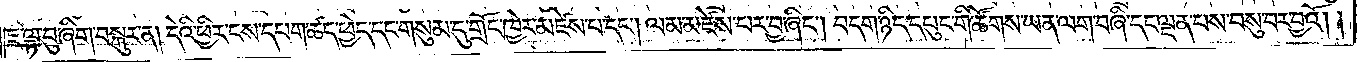ཇི་ལྟ་བུ་ཞིག་བསྐུར་ན། དེའི་ཕྱིར་ངས་དཔག་ཚད་ཕྱེད་དང་གསུམ་དུ་གྲོང་ཁྱེར་མཛེས་པ་དང༌། ལམ་མཛེས་པར་བྱ་ཞིང༌། བདག་ཉིད་དཔུང་གི་ཚོགས་ཡན་ལག་བཞི་དང་ལྡན་པས་བསུ་བར་བྱའོ། །
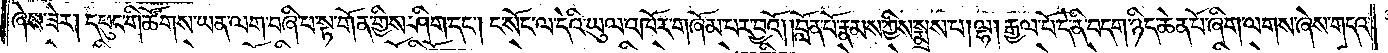ཞེས་ཟེར། དཔུང་གི་ཚོགས་ཡན་ལག་བཞི་པ་སྟ་གོན་གྱིས་ཤིག་དང༌། ང་སོང་ལ་དེའི་ཡུལ་འཁོར་གཞོམ་པར་བྱའོ། །བློན་པོ་རྣམས་ཀྱིས་སྨྲས་པ། ལྷ། རྒྱལ་པོ་དེ་ནི་བདག་ཉིད་ཆེན་པོ་ཞིག་ལགས་ཞེས་གདའ་
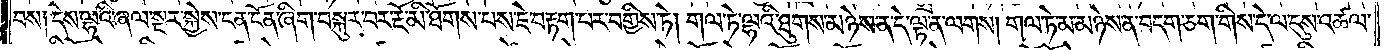བས། དེས་ལྷའི་ཞལ་སྔར་སྐྱེས་ངན་ངོན་ཞིག་བསྐུར་བར་རྔོ་མི་ཐོགས་པས་ཇེ་བརྟག་པར་བགྱིས་ཏེ། གལ་ཏེ་ལྷའི་ཐུགས་མཉེས་ན་དེ་ལྟ་ན་ལགས། གལ་ཏེ་མ་མཉེས་ན་བདག་ཅག་གིས་དེ་ལ་དུས་འཚལ་
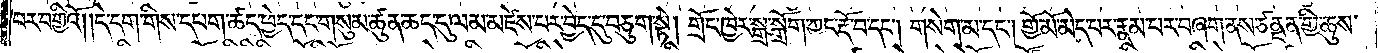བར་བགྱིའོ། །དེ་དག་གིས་དཔག་ཚད་ཕྱེད་དང་གསུམ་ཚུན་ཆད་དུ་ལམ་མཛེས་པར་བྱེད་དུ་བཅུག་སྟེ། གྲོང་ཁྱེར་སྒྲ་སྒྲོག་ཀྱང་རྡོ་བ་དང༌། གསེག་མ་དང༌། གྱོ་མོ་མེད་པར་རྣམ་པར་བཞག་ནས་ཙནྡན་གྱི་ཆུས་
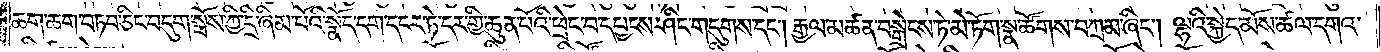ཆག་ཆག་བཏབ་ཅིང་བདུག་སྤོས་ཀྱི་དྲི་ཞིམ་པོའི་སྣོད་དག་དངར་ཏེ་དར་གྱི་ཆུན་པོའི་ཕྲེང་བ་དཔྱངས་ཤིང་གདུགས་དང༌། རྒྱལ་མཚན་བསྒྲེངས་ཏེ་མེ་ཏོག་སྣ་ཚོགས་བཀྲམ་ཞིང༌། ལྷའི་སྐྱེད་མོས་ཚལ་དགའ་
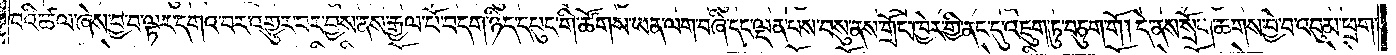བའི་ཚལ་ཞེས་བྱ་བ་ལྟར་དགའ་བར་འགྱུར་བར་བྱས་ནས་རྒྱལ་པོ་བདག་ཉིད་དཔུང་གི་ཚོགས་ཡན་ལག་བཞི་དང་ལྡན་པས་བསུ་ནས་གྲོང་ཁྱེར་གྱི་ནང་དུ་འཇུག་ཏུ་བཅུག་གོ །དེ་ནས་སྲོག་ཆགས་བྱེ་བ་འབུམ་ཕྲག་
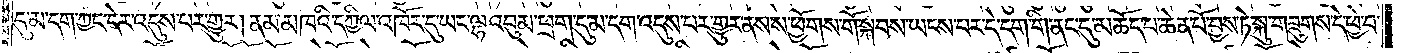དུ་མ་དག་ཀྱང་དེར་འདུས་པར་གྱུར། ནམ་མཁའི་དཀྱིལ་འཁོར་དུ་ཡང་ལྷ་འབུམ་ཕྲག་དུ་མ་དག་འདུས་པར་གྱུར་ནས་ས་ཕྱོགས་གོ་སྐབས་ཡངས་པར་དེ་དག་གི་ནང་དུ་མཆོད་པ་ཆེན་པོ་བྱས་ཏེ་སྐུ་གཟུགས་དེ་ཕྱེ་བ་
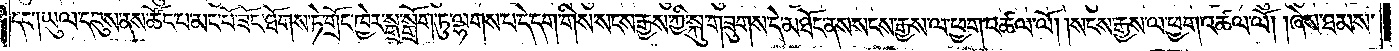དང༌། ཡུལ་དབུས་ནས་ཚོང་པ་མང་པོ་ཟོང་ཐོགས་ཏེ་གྲོང་ཁྱེར་སྒྲ་སྒྲོག་ཏུ་ལྷགས་པ་དེ་དག་གིས་སངས་རྒྱས་ཀྱི་སྐུ་གཟུགས་དེ་མཐོང་ནས་སངས་རྒྱས་ལ་ཕྱག་འཚལ་ལོ། །སངས་རྒྱས་ལ་ཕྱག་འཚལ་ལོ། །ཞེས་ཐམས་
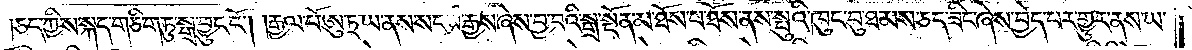ཅད་ཀྱིས་སྐད་གཅིག་ཏུ་སྒྲ་བྱུང་ངོ༌། །རྒྱལ་པོ་ཨུ་ཏྲ་ཡ་ནས་སངས་རྒྱས་ཞེས་བྱ་བའི་སྒྲ་སྔོན་མ་ཐོས་པ་ཐོས་ནས་སྤུའི་ཁུང་བུ་ཐམས་ཅད་ཟིང་ཞེས་བྱེད་པར་གྱུར་ནས་ཡ་
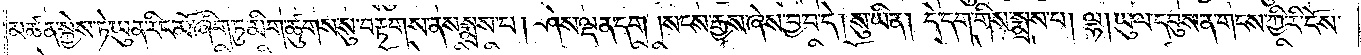མཚན་སྐྱེས་ཏེ་ཡུན་རིང་མོ་ཞིག་ཏུ་མིག་ཚུགས་སུ་བརྟགས་ནས་སྨྲས་པ། ཤེས་ལྡན་དག །སངས་རྒྱས་ཞེས་བྱ་བ་དེ། སུ་ཡིན། དེ་དག་གིས་སྨྲས་པ། ལྷ། ཡུལ་དབུས་ན་གངས་ཀྱི་རི་ངོས་
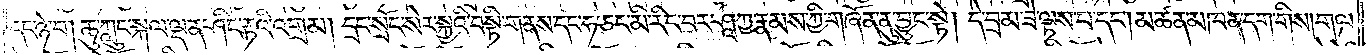དང་ཉེ་བ། ཆུ་ཀླུང་སྐལ་ལྡན་ཤིང་རྟའི་འགྲམ། དྲང་སྲོང་སེར་སྐྱའི་བསྟི་གནས་དང་ཧ་ཅང་མི་རིང་བར་ཤཱཀྱ་རྣམས་ཀྱི་གཞོན་ནུ་བྱུང་སྟེ། དེ་བྲམ་ཟེ་ལྟས་པ་དང༌། མཚན་མཁན་དག་གིས། གལ་
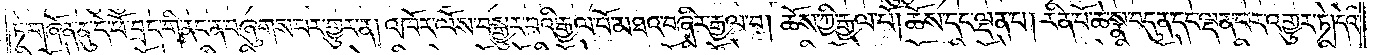ཏེ་གཞོན་ནུ་དེ་ཕོ་བྲང་གི་ནང་ན་བཞུགས་པར་གྱུར་ན། འཁོར་ལོས་བསྒྱུར་བའི་རྒྱལ་པོ་མཐའ་བཞིར་རྒྱལ་བ། ཆོས་ཀྱི་རྒྱལ་པོ། ཆོས་དང་ལྡན་པ། རིན་པོ་ཆེ་སྣ་བདུན་དང་ལྡན་པར་འགྱུར་ཏེ། དེའི་
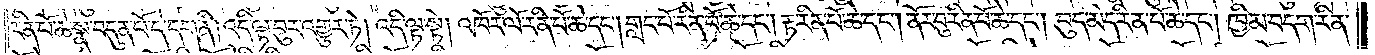རིན་པོ་ཆེ་སྣ་བདུན་པོ་དེ་དག་ནི། འདི་ལྟ་བུར་འགྱུར་ཏེ། འདི་ལྟ་སྟེ། འཁོར་ལོ་རིན་པོ་ཆེ་དང༌། གླང་པོ་རིན་པོ་ཆེ་དང༌། རྟ་རིན་པོ་ཆེ་དང༌། ནོར་བུ་རིན་པོ་ཆེ་དང༌། བུད་མེད་རིན་པོ་ཆེ་དང༌། ཁྱིམ་བདག་རིན་
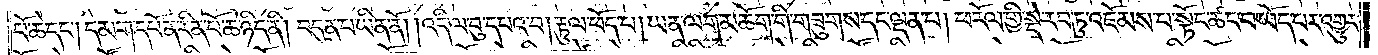པོ་ཆེ་དང༌། དམག་དཔོན་རིན་པོ་ཆེ་ཉིད་ནི། བདུན་པ་ཡིན་ནོ། །འདི་ལ་བུ་དཔའ་བ། རྟུལ་ཕོད་པ། ཡན་ལག་མཆོག་གི་གཟུགས་དང་ལྡན་པ། ཕ་རོལ་གྱི་སྡེ་རབ་ཏུ་འཇོམས་པ་སྟོང་ཚང་པ་ཡོད་པར་འགྱུར་
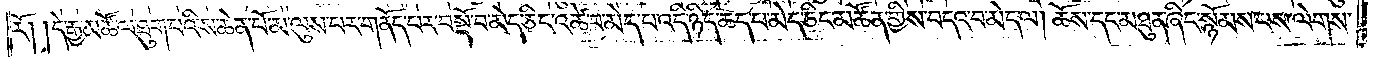རོ། །དེ་རྒྱ་མཚོ་ལ་ཐུག་པའི་ས་ཆེན་པོ་མ་ལུས་པར་གནོད་པར་བསྡོ་བ་མེད་ཅིང་འཚེ་བ་མེད་པ་འདི་ཉིད་ཆད་པ་མེད་ཅིང་མཚོན་གྱིས་བདའ་བ་མེད་ལ། ཆོས་དང་མཐུན་ཞིང་སྙོམས་པས་ལེགས་
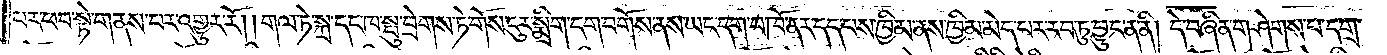པར་ཕབ་སྟེ་གནས་པར་འགྱུར་རོ། །གལ་ཏེ་སྐྲ་དང་ཁ་སྤུ་བྲེགས་ཏེ་གོས་ངུར་སྨྲིག་ངག་བགོས་ནས་ཡང་དག་པ་ཁོ་ནར་དད་པས་ཁྱིམ་ནས་ཁྱིམ་མེད་པར་རབ་ཏུ་བྱུང་ན་ནི། དེ་བཞིན་གཤེགས་པ་དགྲ་
